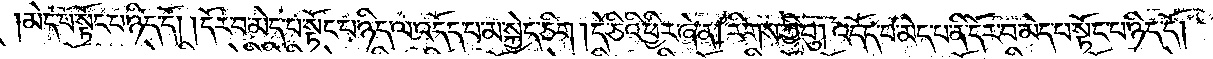མེད་པ་སྟོང་པ་ཉིད་དོ། །དོར་བ་མེད་པ་སྟོང་པ་ཉིད་ལ་འདོད་པ་མ་སྐྱེད་ཅིག །དེ་ཅིའི་ཕྱིར་ཞེ་ན། རིགས་ཀྱི་བུ། འདོད་པ་མེད་པ་ནི་དོར་བ་མེད་པ་སྟོང་པ་ཉིད་དོ། །
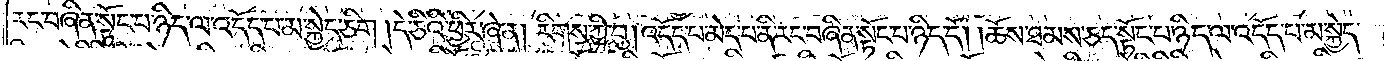རང་བཞིན་སྟོང་པ་ཉིད་ལ་འདོད་པ་མ་སྐྱེད་ཅིག །དེ་ཅིའི་ཕྱིར་ཞེ་ན། རིགས་ཀྱི་བུ། འདོད་པ་མེད་པ་ནི་རང་བཞིན་སྟོང་པ་ཉིད་དོ། །ཆོས་ཐམས་ཅད་སྟོང་པ་ཉིད་ལ་འདོད་པ་མ་སྐྱེད་
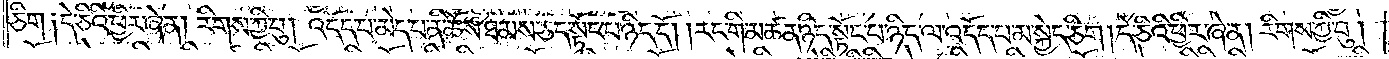ཅིག །དེ་ཅིའི་ཕྱིར་ཞེ་ན། རིགས་ཀྱི་བུ། འདོད་པ་མེད་པ་ནི་ཆོས་ཐམས་ཅད་སྟོང་པ་ཉིད་དོ། །རང་གི་མཚན་ཉིད་སྟོང་པ་ཉིད་ལ་འདོད་པ་མ་སྐྱེད་ཅིག །དེ་ཅིའི་ཕྱིར་ཞེ་ན། རིགས་ཀྱི་བུ།
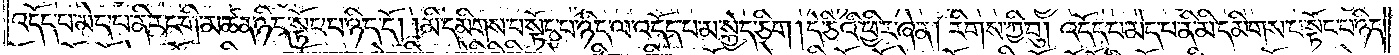འདོད་པ་མེད་པ་ནི་རང་གི་མཚན་ཉིད་སྟོང་པ་ཉིད་དོ། །མི་དམིགས་པ་སྟོང་པ་ཉིད་ལ་འདོད་པ་མ་སྐྱེད་ཅིག །དེ་ཅིའི་ཕྱིར་ཞེ་ན། རིགས་ཀྱི་བུ། འདོད་པ་མེད་པ་ནི་མི་དམིགས་པ་སྟོང་པ་ཉིད་
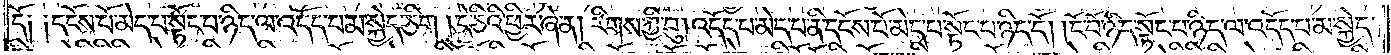དོ། །དངོས་པོ་མེད་པ་སྟོང་པ་ཉིད་ལ་འདོད་པ་མ་སྐྱེད་ཅིག །དེ་ཅིའི་ཕྱིར་ཞེ་ན། རིགས་ཀྱི་བུ། འདོད་པ་མེད་པ་ནི་དངོས་པོ་མེད་པ་སྟོང་པ་ཉིད་དོ། །ངོ་བོ་ཉིད་སྟོང་པ་ཉིད་ལ་འདོད་པ་མ་སྐྱེད་
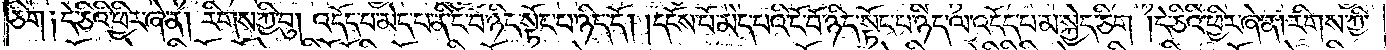ཅིག །དེ་ཅིའི་ཕྱིར་ཞེ་ན། རིགས་ཀྱི་བུ། འདོད་པ་མེད་པ་ནི་ངོ་བོ་ཉིད་སྟོང་པ་ཉིད་དོ། །དངོས་པོ་མེད་པའི་ངོ་བོ་ཉིད་སྟོང་པ་ཉིད་ལ་འདོད་པ་མ་སྐྱེད་ཅིག །དེ་ཅིའི་ཕྱིར་ཞེ་ན། རིགས་ཀྱི་
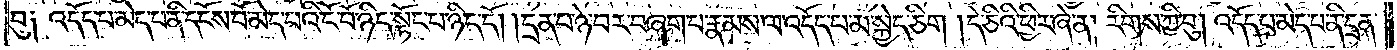བུ། འདོད་པ་མེད་པ་ནི་དངོས་པོ་མེད་པའི་ངོ་བོ་ཉིད་སྟོང་པ་ཉིད་དོ། །དྲན་པ་ཉེ་བར་བཞག་པ་རྣམས་ལ་འདོད་པ་མ་སྐྱེད་ཅིག །དེ་ཅིའི་ཕྱིར་ཞེ་ན། རིགས་ཀྱི་བུ། འདོད་པ་མེད་པ་ནི་དྲན་
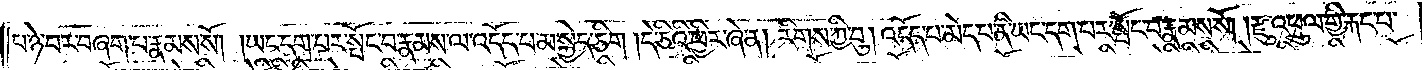པ་ཉེ་བར་བཞག་པ་རྣམས་སོ། །ཡང་དག་པར་སྤོང་བ་རྣམས་ལ་འདོད་པ་མ་སྐྱེད་ཅིག །དེ་ཅིའི་ཕྱིར་ཞེ་ན། རིགས་ཀྱི་བུ། འདོད་པ་མེད་པ་ནི་ཡང་དག་པར་སྤོང་བ་རྣམས་སོ། །རྫུ་འཕྲུལ་གྱི་རྐང་པ་
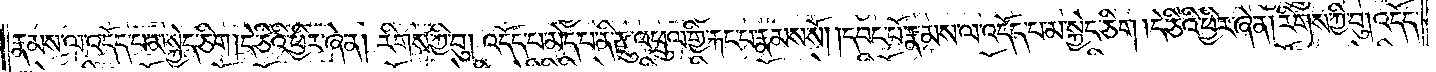རྣམས་ལ་འདོད་པ་མ་སྐྱེད་ཅིག །དེ་ཅིའི་ཕྱིར་ཞེ་ན། རིགས་ཀྱི་བུ། འདོད་པ་མེད་པ་ནི་རྫུ་འཕྲུལ་གྱི་རྐང་པ་རྣམས་སོ། །དབང་པོ་རྣམས་ལ་འདོད་པ་མ་སྐྱེད་ཅིག །དེ་ཅིའི་ཕྱིར་ཞེ་ན། རིགས་ཀྱི་བུ། འདོད་
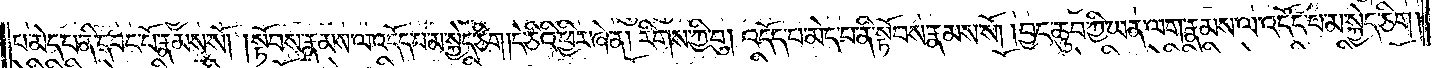པ་མེད་པ་ནི་དབང་པོ་རྣམས་སོ། །སྟོབས་རྣམས་ལ་འདོད་པ་མ་སྐྱེད་ཅིག །དེ་ཅིའི་ཕྱིར་ཞེ་ན། རིགས་ཀྱི་བུ། འདོད་པ་མེད་པ་ནི་སྟོབས་རྣམས་སོ། །བྱང་ཆུབ་ཀྱི་ཡན་ལག་རྣམས་ལ་འདོད་པ་མ་སྐྱེད་ཅིག།
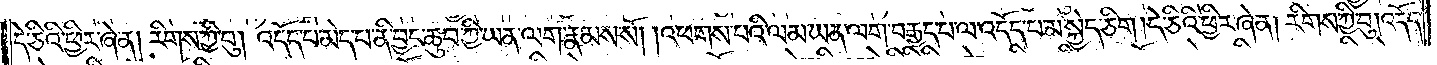དེ་ཅིའི་ཕྱིར་ཞེ་ན། རིགས་ཀྱི་བུ། འདོད་པ་མེད་པ་ནི་བྱང་ཆུབ་ཀྱི་ཡན་ལག་རྣམས་སོ། །འཕགས་པའི་ལམ་ཡན་ལག་བརྒྱད་པ་ལ་འདོད་པ་མ་སྐྱེད་ཅིག །དེ་ཅིའི་ཕྱིར་ཞེ་ན། རིགས་ཀྱི་བུ། འདོད་
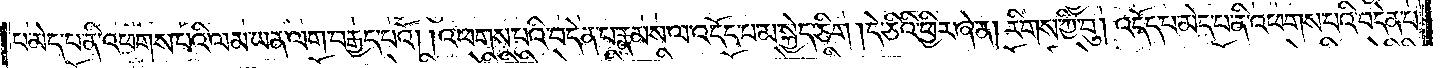པ་མེད་པ་ནི་འཕགས་པའི་ལམ་ཡན་ལག་བརྒྱད་པའོ། །འཕགས་པའི་བདེན་པ་རྣམས་ལ་འདོད་པ་མ་སྐྱེད་ཅིག །དེ་ཅིའི་ཕྱིར་ཞེ་ན། རིགས་ཀྱི་བུ། འདོད་པ་མེད་པ་ནི་འཕགས་པའི་བདེན་པ་
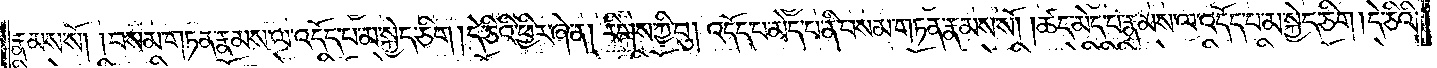རྣམས་སོ། །བསམ་གཏན་རྣམས་ལ་འདོད་པ་མ་སྐྱེད་ཅིག །དེ་ཅིའི་ཕྱིར་ཞེ་ན། རིགས་ཀྱི་བུ། འདོད་པ་མེད་པ་ནི་བསམ་གཏན་རྣམས་སོ། །ཚད་མེད་པ་རྣམས་ལ་འདོད་པ་མ་སྐྱེད་ཅིག །དེ་ཅིའི་
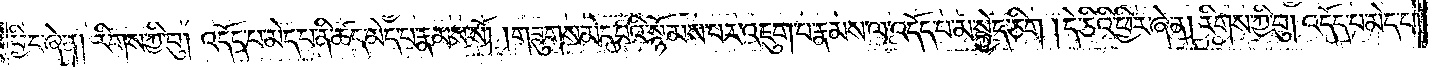ཕྱིར་ཞེ་ན། རིགས་ཀྱི་བུ། འདོད་པ་མེད་པ་ནི་ཚད་མེད་པ་རྣམས་སོ། །གཟུགས་མེད་པའི་སྙོམས་པར་འཇུག་པ་རྣམས་ལ་འདོད་པ་མ་སྐྱེད་ཅིག །དེ་ཅིའི་ཕྱིར་ཞེ་ན། རིགས་ཀྱི་བུ། འདོད་པ་མེད་པ་
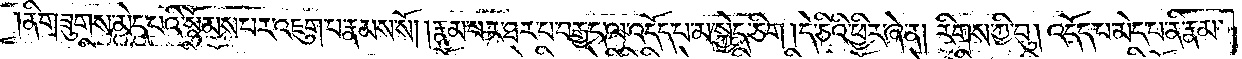ནི་གཟུགས་མེད་པའི་སྙོམས་པར་འཇུག་པ་རྣམས་སོ། །རྣམ་པར་ཐར་པ་བརྒྱད་ལ་འདོད་པ་མ་སྐྱེད་ཅིག །དེ་ཅིའི་ཕྱིར་ཞེ་ན། རིགས་ཀྱི་བུ། འདོད་པ་མེད་པ་ནི་རྣམ་
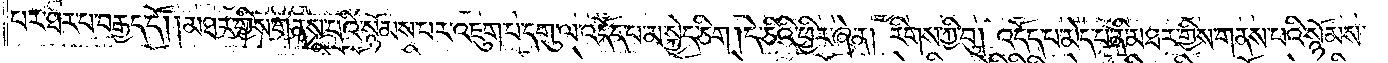པར་ཐར་པ་བརྒྱད་དོ། །མཐར་གྱིས་གནས་པའི་སྙོམས་པར་འཇུག་པ་དགུ་ལ་འདོད་པ་མ་སྐྱེད་ཅིག །དེ་ཅིའི་ཕྱིར་ཞེ་ན། རིགས་ཀྱི་བུ། འདོད་པ་མེད་པ་ནི་མཐར་གྱིས་གནས་པའི་སྙོམས་
